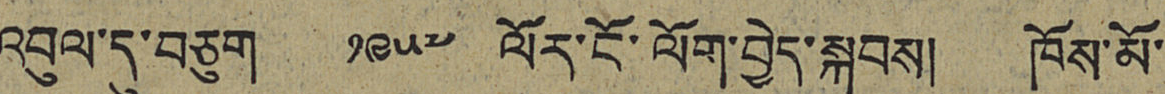འབུལ་དུ་བཅུག ༡༩༥༧ ལོར་ངོ་ལོག་བྱེད་སྐབས། ཁོས་མོ་
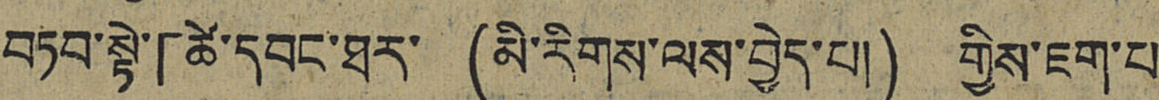བཏབ་སྟེ་「ཚེ་དབང་ཐར་ (མི་རིགས་ལས་བྱེད་པ།) གྱིས་ཇག་པ་
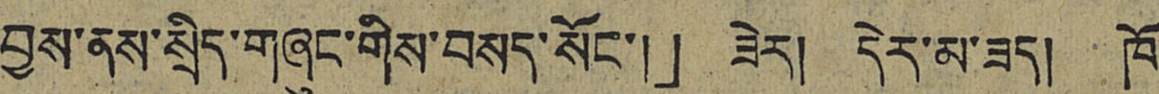བྱས་ནས་སྲིད་གཞུང་གིས་བསད་སོང་།」 ཟེར། དེར་མ་ཟད། ཁོ་
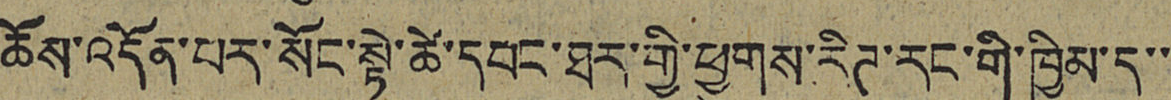ཆོས་འདོན་པར་སོང་སྟེ་ཚེ་དབང་ཐར་གྱི་ཕྱུགས་རིཊ་རང་གི་ཁྱིམ་དུ་་
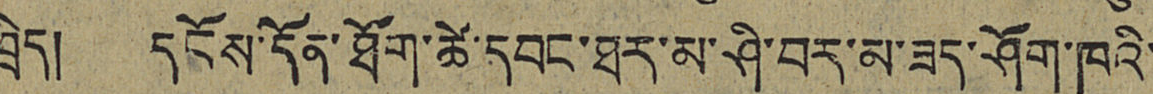ཁྲིད། དངོས་དོན་ཐོག་ཚེ་དབང་ཐར་མ་ཤི་བར་མ་ཟད་ཤོག་ཁའི་
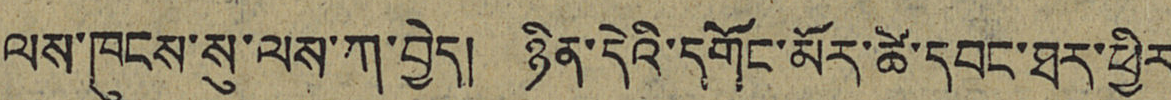ལས་ཁུངས་སུ་ལས་ཀ་བྱེད། ཉིན་དེའི་དགོང་མོར་ཚེ་དབང་ཐར་ཕྱིར
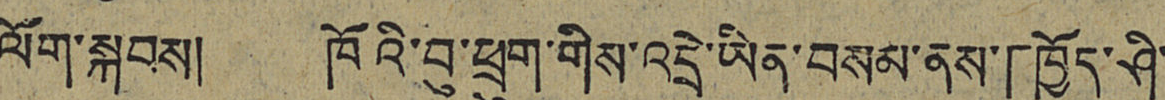ལོག་སྐབས། ཁོའི་བུ་ཕྲུག་གིས་འདྲེ་ཡིན་བསམ་ནས་「ཁྱོད་ཤི་
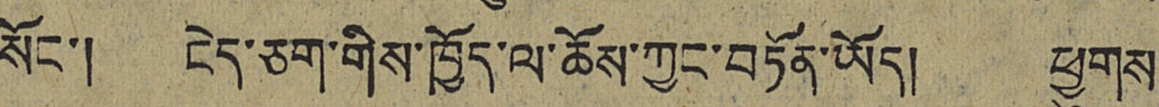སོང་། ངེད་ཅག་གིས་ཁྱོད་ལ་ཆོས་ཀྱང་བཏོན་ཡོད། ཕྱུགས་
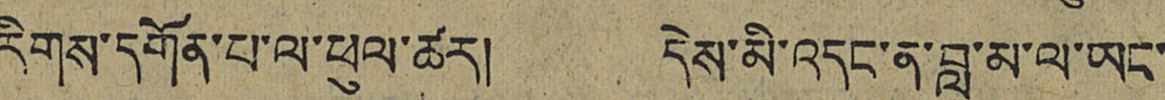རིགས་དགོན་པ་ལ་ཕུལ་ཚར། དེས་མི་འདང་ན་བླ་མ་ལ་ཡང་
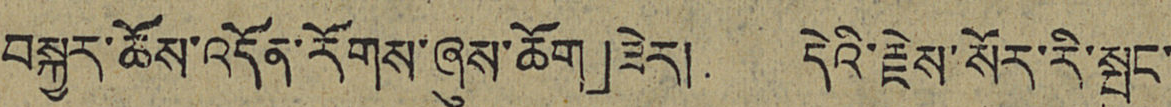བསྐྱར་ཆོས་འདོན་རིགས་ཞུས་ཆོག」ཟེར། དེའི་རྗེས་སོར་རི་སྤུང་
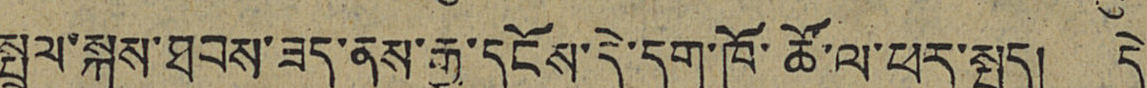སྤྲུལ་སྐུས་ཐབས་ཟད་ནས་རྒྱུ་དངོས་དེ་དག་ཁོ་ཚོ་ལ་ཕར་སྤྲད། དེ་
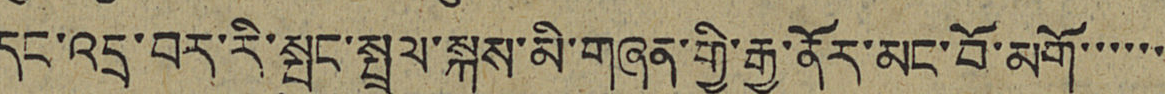དང་འདྲ་བར་རི་སྤྲུང་སྤྲུལ་སྐུས་མི་གཞན་གྱི་རྒྱུ་ནོར་མང་བོ་མགོ་་་་་་
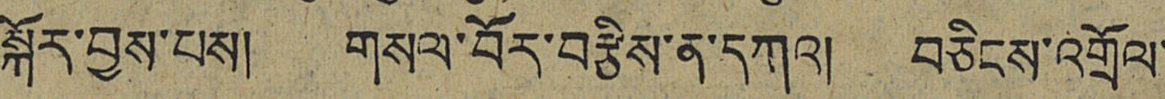སྐོར་བྱས་པས། གསལ་བོར་བརྩིས་ན་དཀའ། བཅིངས་འགྲོལ་
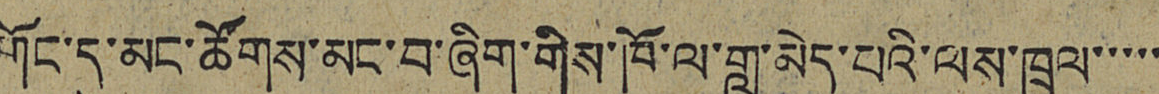གོང་དུ་མང་ཚོགས་མང་བ་ཞིག་གིས་ཁོ་ལ་གླ་མེད་པའི་ལས་ཁྲལ་་་་་
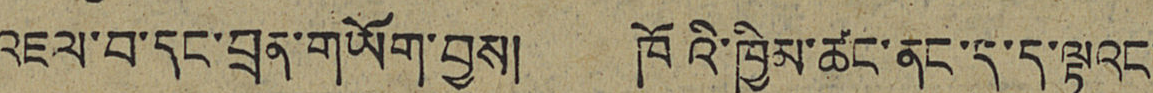འཇལ་བ་དང་བྲན་གཡོག་བྱས། ཁོའི་ཁྱིམ་ཚང་ནང་དུ་ད་ལྟའང་
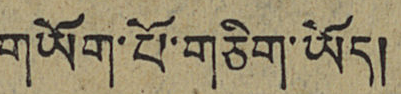གཡོག་པོ་གཅིག་ཡོད།
